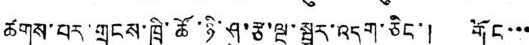ཚགས་པར་གྲངས་ཁྲི་ཚོ་ཉི་ཤུ་རྩ་ལྔ་སྦྱར་འདུག་ཅིང་། གོང་་་
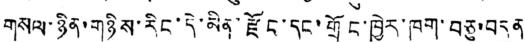གསལ་ཉིན་གཉིས་རིང་དེ་མིན་རྫོང་དང་གྲོང་ཁྱེར་ཁག་བཅུ་བདུན་
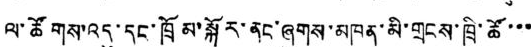ལ་ཚོགས་འདུ་དང་ཁྲོམ་སྐོར་ནང་ཞུགས་མཁན་མི་གྲངས་ཁྲི་ཚོ་་་
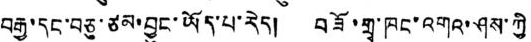བརྒྱ་དང་བཅུ་ཙམ་བྱུང་ཡོད་པ་རེད། བཟོ་གྲྭ་ཁང་འགའ་ཤས་ཀྱི
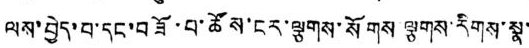ལས་བྱེད་པ་དང་བཟོ་བ་ཚོས་ངར་ལྕགས་སོགས་ལྕགས་རིགས་སྣ་
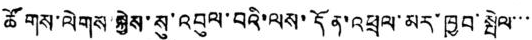ཚོགས་ལེགས་སྐྱེས་སུ་འབུལ་བའི་ལས་དོན་འཕྲལ་མར་ཁྱབ་སྤེལ་་་
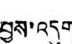བྱས་འདུག
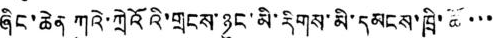ཞིང་ཆེན ཀུའེ་ཀྲེའོའི་གྲང་ཉུང་མི་རིགས་མི་དམངས་ཁྲི་ཚོ་་་
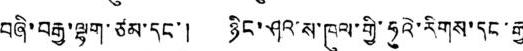བཞི་བརྒྱ་ལྷག་ཙམ་དང་། ཉིང་ཤའ་ས་ཁུལ་གྱི་ཧུའེ་རིགས་དང་རྒྱ
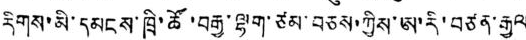རིགས་མི་དམངས་ཁྲི་ཚོ་བརྒྱ་ལྷག་ཙམ་བཅས་ཀྱིས་ཨ་རི་བཙན་རྒྱལ
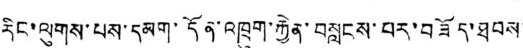རིང་ལུགས་པས་དམག་དོན་འཁྲུག་རྐྱེན་བསླངས་བར་བཟོད་ཐབས་
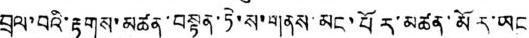བྲལ་བའི་རྟགས་མཚན་བསྟན་ཏེ་ས་གནས་མང་པོར་མཚན་མོར་ཡང
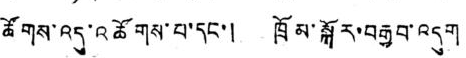ཚོགས་འདུ་འཚོགས་པ་དང་། ཁྲོམ་སྐོར་བརྒྱབ་འདུག
